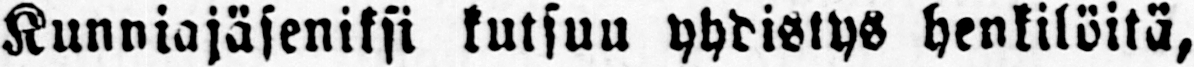Kunniajäseniksi kutsuu yhdistys henkilöitä,
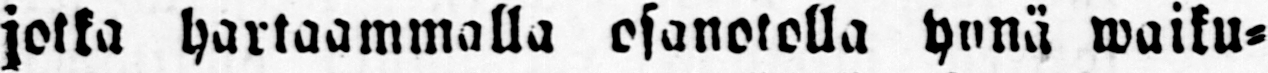jotka hartaammalla osanotolla ynnä waiku-
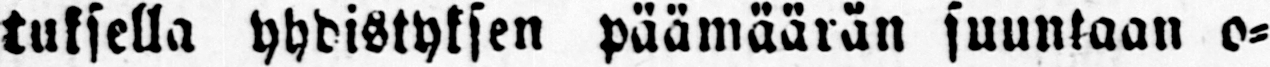tuksella yhdistyksen päämäärän suuntaan o-
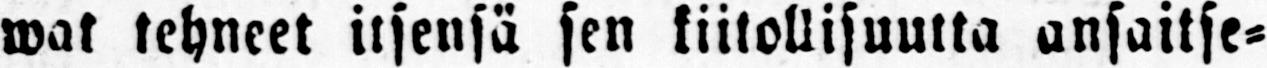wat tehneet itsensä sen kiitollisuutta ansaitse-
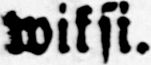viksi.
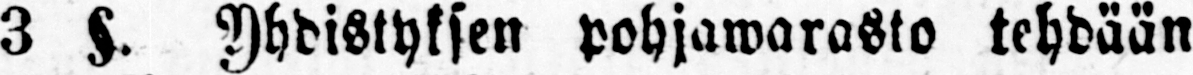3 §. Ydistyksen pohjawarasto tehdään
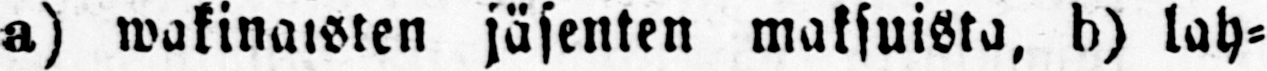a) wakinaisten jäsenten maksuista, b) lah-
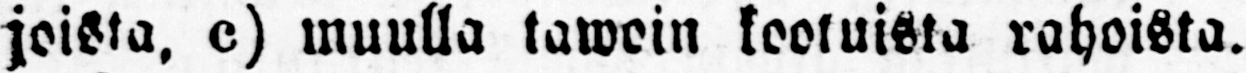joista. c) muulla tawoin kootuista rahoista.
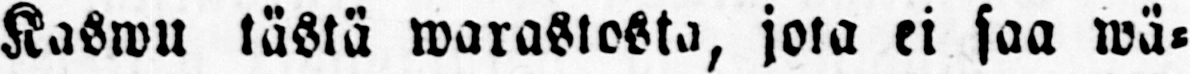Kaswu tästä warastosta, jota ei saa wä-
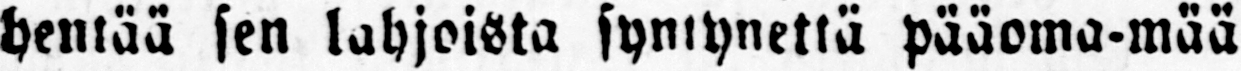hentää sen lahjoista syntynettä pääoma-mää-
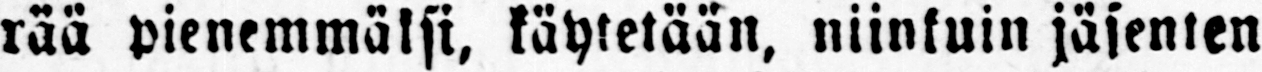rää pienemmäksi, käytetään, niinkuin jäsenten
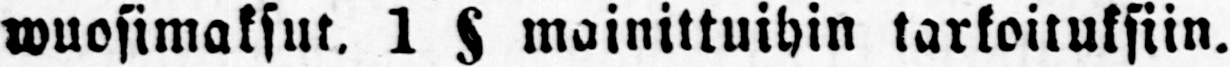wuosimaksut. 1 § mainittuihin tarkoituksiin.
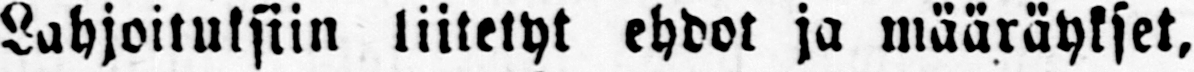Lahjoituksiin liitetyt ehdot ja määräykset,
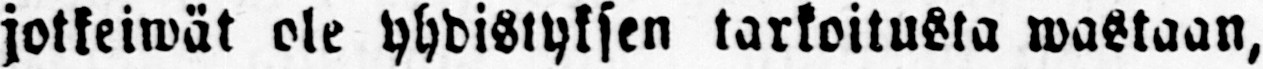jotkeiwät ole yhdistyksen tarkoitusta wastaan,
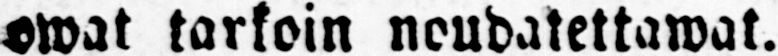owat tarkoin noudatettawat.
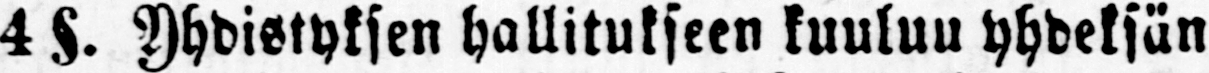4 §. Yhdistyksen hallitukseen kuuluu yhdeksän
